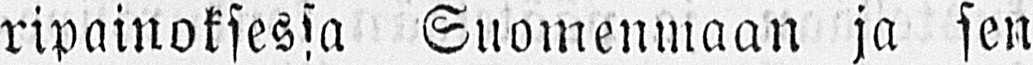ripainoksessa Suomenmaan ja sen
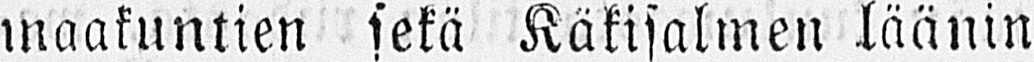maakuntien sekä Käkisalmen läänin
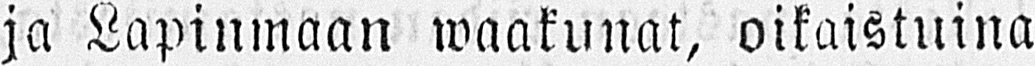ja Lapinmaan waakunat, oikaistuina
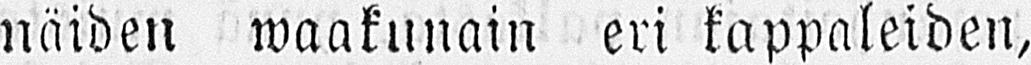näiden waakunain eri kappaleiden,
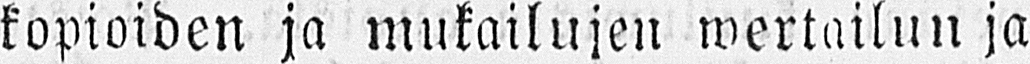kopioiden ja mukailujen wertailun ja
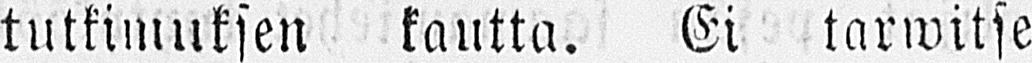tutkimuksen kautta. Ei tarwitse
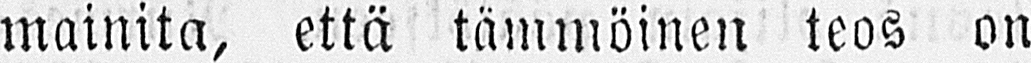mainita, että tämmöinen teos on
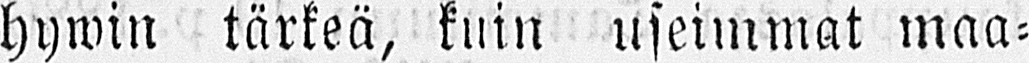hywin tärkeä, kuin useimmat maa-
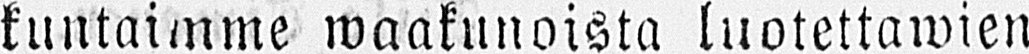kuntaimme waakunoista luotettawien
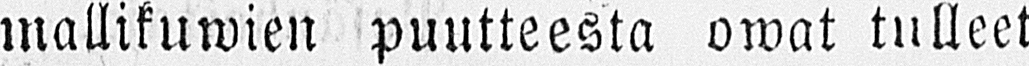mallikuwien puutteesta owat tulleet
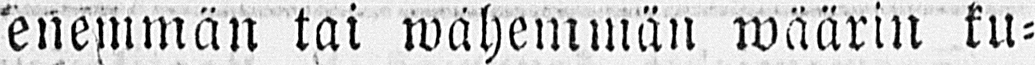enemmän tai wähemmän wäärin ku-
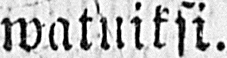watuiksi.
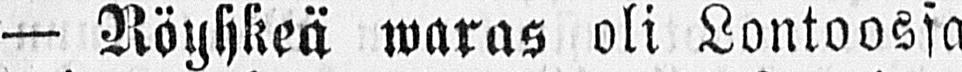— Röyhkeä waras oli Lontoossa
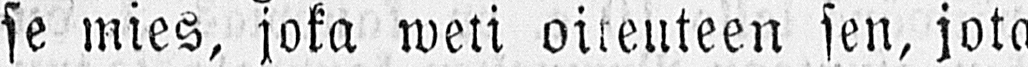se mies, joka weti oikeuteen sen, jota
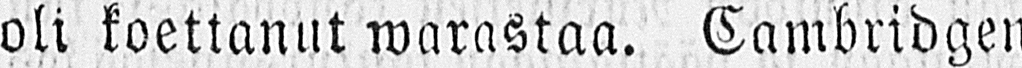oli koettanut warastaa. Cambridgen
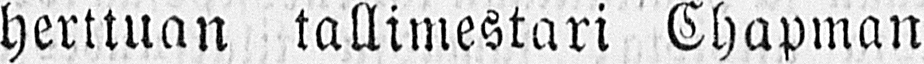herttuan tallimestari Chapman
